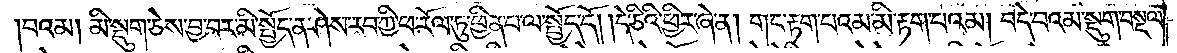བའམ། མི་སྡུག་ཅེས་བྱ་བར་མི་སྤྱོད་ན་ཤེས་རབ་ཀྱི་ཕ་རོལ་ཏུ་ཕྱིན་པ་ལ་སྤྱོད་དོ། །དེ་ཅིའི་ཕྱིར་ཞེ་ན། གང་རྟག་པའམ་མི་རྟག་པའམ། བདེ་བའམ་སྡུག་བསྔལ་
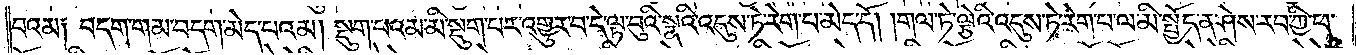བའམ། བདག་གམ་བདག་མེད་པའམ། སྡུག་པའམ་མི་སྡུག་པར་འགྱུར་བ་དེ་ལྟ་བུའི་སྣའི་འདུས་ཏེ་རེག་པ་མེད་དོ། །གལ་ཏེ་ལྕེའི་འདུས་ཏེ་རེག་པ་ལ་མི་སྤྱོད་ན་ཤེས་རབ་ཀྱི་ཕ་
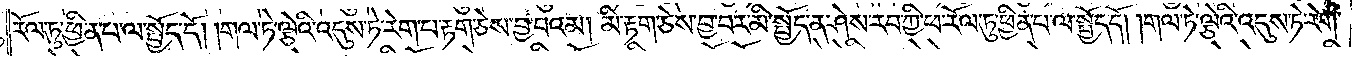རོལ་ཏུ་ཕྱིན་པ་ལ་སྤྱོད་དོ། །གལ་ཏེ་ལྕེའི་འདུས་ཏེ་རེག་པ་རྟག་ཅེས་བྱ་བའམ། མི་རྟག་ཅེས་བྱ་བར་མི་སྤྱོད་ན་ཤེས་རབ་ཀྱི་ཕ་རོལ་ཏུ་ཕྱིན་པ་ལ་སྤྱོད་དོ། །གལ་ཏེ་ལྕེའི་འདུས་ཏེ་རེག་
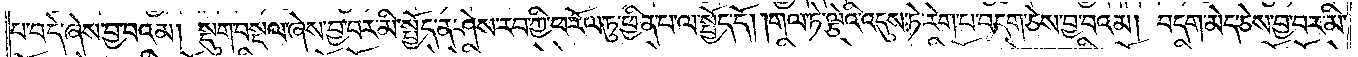པ་བདེ་ཞེས་བྱ་བའམ། སྡུག་བསྔལ་ཞེས་བྱ་བར་མི་སྤྱོད་ན་ཤེས་རབ་ཀྱི་ཕ་རོལ་ཏུ་ཕྱིན་པ་ལ་སྤྱོད་དོ། །གལ་ཏེ་ལྕེའི་འདུས་ཏེ་རེག་པ་བདག་ཅེས་བྱ་བའམ། བདག་མེད་ཅེས་བྱ་བར་མི་
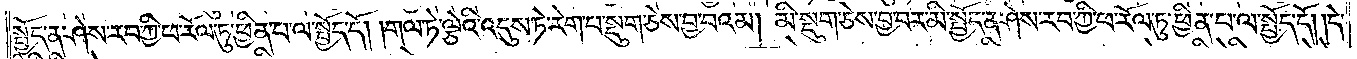སྤྱོད་ན་ཤེས་རབ་ཀྱི་ཕ་རོལ་ཏུ་ཕྱིན་པ་ལ་སྤྱོད་དོ། །གལ་ཏེ་ལྕེའི་འདུས་ཏེ་རེག་པ་སྡུག་ཅེས་བྱ་བའམ། མི་སྡུག་ཅེས་བྱ་བར་མི་སྤྱོད་ན་ཤེས་རབ་ཀྱི་ཕ་རོལ་ཏུ་ཕྱིན་པ་ལ་སྤྱོད་དོ། །དེ་
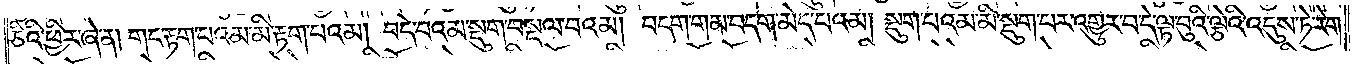ཅིའི་ཕྱིར་ཞེ་ན། གང་རྟག་པའམ་མི་རྟག་པའམ། བདེ་བའམ་སྡུག་བསྔལ་བའམ། བདག་གམ་བདག་མེད་པའམ། སྡུག་པའམ་མི་སྡུག་པར་འགྱུར་བ་དེ་ལྟ་བུའི་ལྕེའི་འདུས་ཏེ་རེག་
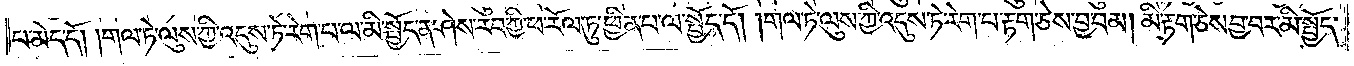པ་མེད་དོ། །གལ་ཏེ་ལུས་ཀྱི་འདུས་ཏེ་རེག་པ་ལ་མི་སྤྱོད་ན་ཤེས་རབ་ཀྱི་ཕ་རོལ་ཏུ་ཕྱིན་པ་ལ་སྤྱོད་དོ། །གལ་ཏེ་ལུས་ཀྱི་འདུས་ཏེ་རེག་པ་རྟག་ཅེས་བྱ་བའམ། མི་རྟག་ཅེས་བྱ་བར་མི་སྤྱོད་
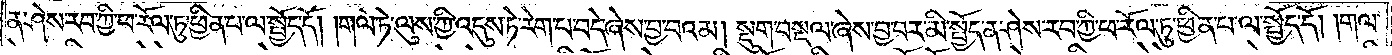ན་ཤེས་རབ་ཀྱི་ཕ་རོལ་ཏུ་ཕྱིན་པ་ལ་སྤྱོད་དོ། །གལ་ཏེ་ལུས་ཀྱི་འདུས་ཏེ་རེག་པ་བདེ་ཞེས་བྱ་བའམ། སྡུག་བསྔལ་ཞེས་བྱ་བར་མི་སྤྱོད་ན་ཤེས་རབ་ཀྱི་ཕ་རོལ་ཏུ་ཕྱིན་པ་ལ་སྤྱོད་དོ། །གལ་
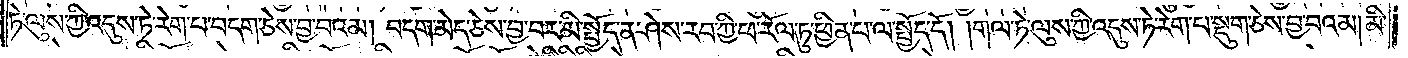ཏེ་ལུས་ཀྱི་འདུས་ཏེ་རེག་པ་བདག་ཅེས་བྱ་བའམ། བདག་མེད་ཅེས་བྱ་བར་མི་སྤྱོད་ན་ཤེས་རབ་ཀྱི་ཕ་རོལ་ཏུ་ཕྱིན་པ་ལ་སྤྱོད་དོ། །གལ་ཏེ་ལུས་ཀྱི་འདུས་ཏེ་རེག་པ་སྡུག་ཅེས་བྱ་བའམ། མི་
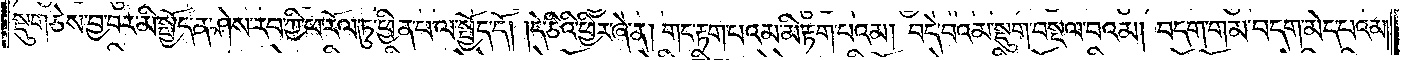སྡུག་ཅེས་བྱ་བར་མི་སྤྱོད་ན་ཤེས་རབ་ཀྱི་ཕ་རོལ་ཏུ་ཕྱིན་པ་ལ་སྤྱོད་དོ། །དེ་ཅིའི་ཕྱིར་ཞེ་ན། གང་རྟག་པའམ་མི་རྟག་པའམ། བདེ་བའམ་སྡུག་བསྔལ་བའམ། བདག་གམ་བདག་མེད་པའམ།
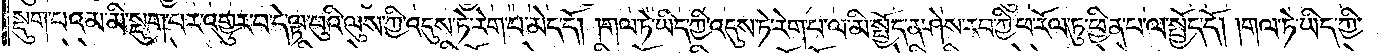སྡུག་པའམ་མི་སྡུག་པར་འགྱུར་བ་དེ་ལྟ་བུའི་ལུས་ཀྱི་འདུས་ཏེ་རེག་པ་མེད་དོ། །གལ་ཏེ་ཡིད་ཀྱི་འདུས་ཏེ་རེག་པ་ལ་མི་སྤྱོད་ན་ཤེས་རབ་ཀྱི་ཕ་རོལ་ཏུ་ཕྱིན་པ་ལ་སྤྱོད་དོ། །གལ་ཏེ་ཡིད་ཀྱི་
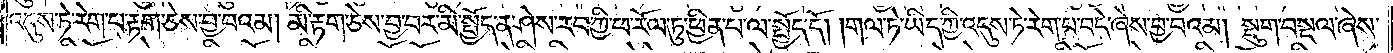འདུས་ཏེ་རེག་པ་རྟག་ཅེས་བྱ་བའམ། མི་རྟག་ཅེས་བྱ་བར་མི་སྤྱོད་ན་ཤེས་རབ་ཀྱི་ཕ་རོལ་ཏུ་ཕྱིན་པ་ལ་སྤྱོད་དོ། །གལ་ཏེ་ཡིད་ཀྱི་འདུས་ཏེ་རེག་པ་བདེ་ཞེས་བྱ་བའམ། སྡུག་བསྔལ་ཞེས་
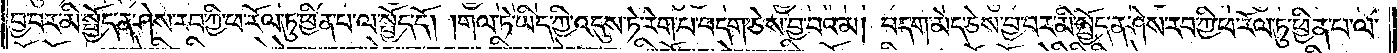བྱ་བར་མི་སྤྱོད་ན་ཤེས་རབ་ཀྱི་ཕ་རོལ་ཏུ་ཕྱིན་པ་ལ་སྤྱོད་དོ། །གལ་ཏེ་ཡིད་ཀྱི་འདུས་ཏེ་རེག་པ་བདག་ཅེས་བྱ་བའམ། བདག་མེད་ཅེས་བྱ་བར་མི་སྤྱོད་ན་ཤེས་རབ་ཀྱི་ཕ་རོལ་ཏུ་ཕྱིན་པ་ལ་
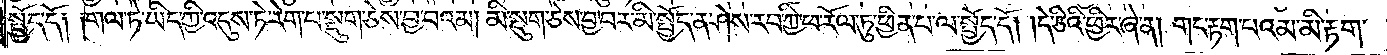སྤྱོད་དོ༑ ༑གལ་ཏེ་ཡིད་ཀྱི་འདུས་ཏེ་རེག་པ་སྡུག་ཅེས་བྱ་བའམ། མི་སྡུག་ཅེས་བྱ་བར་མི་སྤྱོད་ན་ཤེས་རབ་ཀྱི་ཕ་རོལ་ཏུ་ཕྱིན་པ་ལ་སྤྱོད་དོ། །དེ་ཅིའི་ཕྱིར་ཞེ་ན། གང་རྟག་པའམ་མི་རྟག་
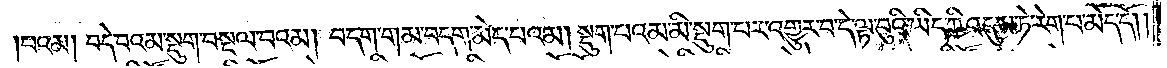པའམ། བདེ་བའམ་སྡུག་བསྔལ་བའམ། བདག་གམ་བདག་མེད་པའམ། སྡུག་པའམ་མི་སྡུག་པར་འགྱུར་བ་དེ་ལྟ་བུའི་ཡིད་ཀྱི་འདུས་ཏེ་རེག་པ་མེད་དོ། །
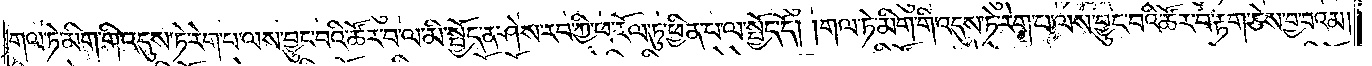གལ་ཏེ་མིག་གི་འདུས་ཏེ་རེག་པ་ལས་བྱུང་བའི་ཚོར་བ་ལ་མི་སྤྱོད་ན་ཤེས་རབ་ཀྱི་ཕ་རོལ་ཏུ་ཕྱིན་པ་ལ་སྤྱོད་དོ། །གལ་ཏེ་མིག་གི་འདུས་ཏེ་རེག་པ་ལས་བྱུང་བའི་ཚོར་བ་རྟག་ཅེས་བྱ་བའམ།
